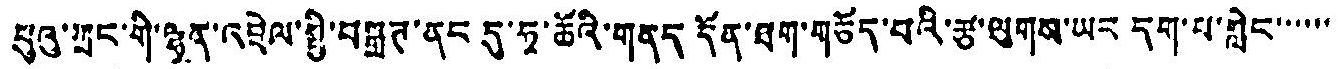པུའུ་ཀྲང་གི་ལྷན་འབྲེལ་སྤྱི་བསྒྲཊ་ནང དུ་ཧྭ་ཆོའི་གནད དོན་ཐག་གཅོད་པའི་རྩ་ལུགས་ཡང དག་པ་གླེང་་་་་་
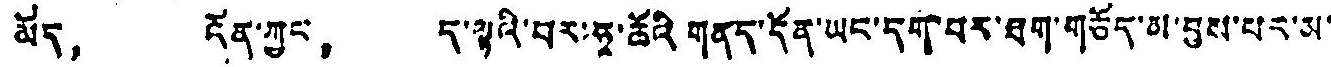མོད， འོན་ཀྱང。 ད་ལྟའི་བར་ཧྭ་ཆོའི གནད་དོན་ཡང་དག་པར་ཐག་གཅོད་མ་བྱས་པར་མ་
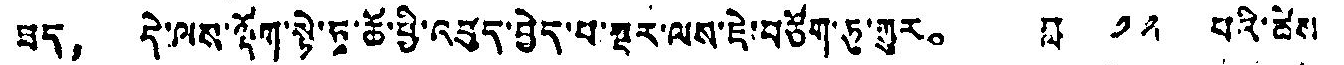ཟད， དེ་ལས་ལྡོག་སྟེ་ཧྭ་ཆོ་ཕྱི་འབུད་བྱེད་པ་སྔར་ལས་ཇེ་བཙོག་ཏུ་གྱུར。 ཟླ ༡༢ པའི་ཚེས
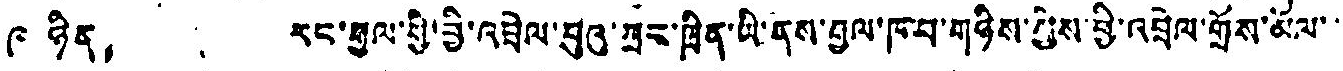༩ ཉིན， རང་རྒྱལ་གྱི་ཕྱི་འབྲེལ་པུའུ་ཀྲང་ཁྲིན་ཡི་ནས་བྱལ་ཁབ་གཉིས་ཀྱིས་ཕྱི་འབྲེལ་གྲོས་མོལ་་
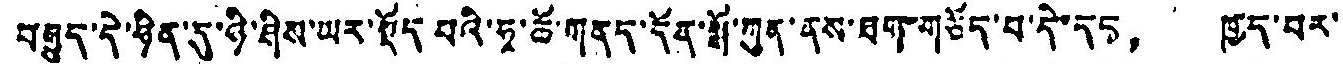བརྒྱུད་དེ་ཤིན་དུ་ཉི་ཤིས་ཡར་སྡོད པའི་ཧྭ་ཆོ་གནད་དོན་སྒོ་ཀུན་ནས་ཐག་གཅོད་པ་དེ་དང， ཁྱད་པར་
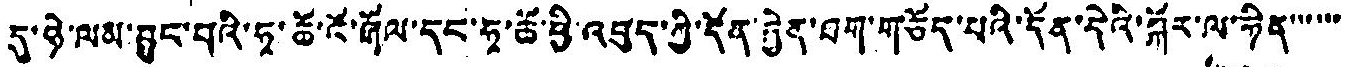དུ་ཉེ་ལམ་བྱུང་བའི་ཧྭ་ཆོ་ངོ་རྒོལ་དང་ཧྭ་ཆོ་ཕྱི་འབུད་ཀྱི་དོན་རྐྱེན་བག་གཅོད་པའི་དོན་དེའི་སྐོར་ལ་ཧིན་་་་་་་
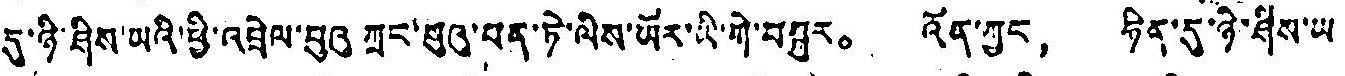དུ་ཉི་ཤིས་ཡའི་ཕྱི་འབྲེལ་པུའུ ཀྲང་སུའུ་པན་ཏེ་ལིས་ཡོར་ཡི་གེ་བསྐུར。 འོན་ཀྱང， ཧིན་དུ་ཉི་ཤིས་ཡ
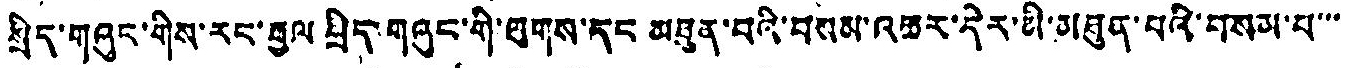སྲིད་གཞུང་གིས་རང་རྒྱལ སྲིད་གཞུང་གི་ལུགས་དང མཐུན་པའི་བསམ་འཆར་དེར་མ་མཐུན་པའི་བསམ་པ་་་
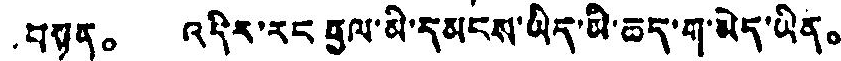བསྟན。 འདིར་རང རྒྱལ་མི་དམངས་ཡིད་མི་ཆད་ག་མེད་ཡིན。
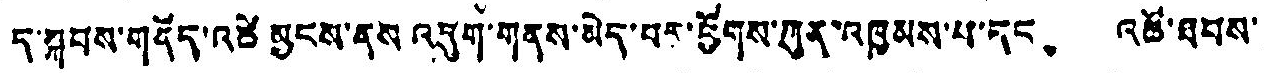ད་སྐབས་གདོད་འཚེ མྱངས་ནས འབུག་གནས་མེད་པར་ཕྱོགས་ཀུན་འཁྱམས་པ་དང、 འཚོ་ཐབས་
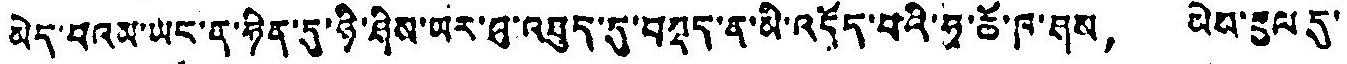མེད་པའམ་ཡང་ན་ཉིན་དུ་ཉི་ཤིས་ཡར་ཐུ་འཐུད་དུ་བསད་ན་མི་འདོད་པའི་ཧྭ་ཆོ་ཁ་ཤས， ཡེབ་རྡུལ དུ་
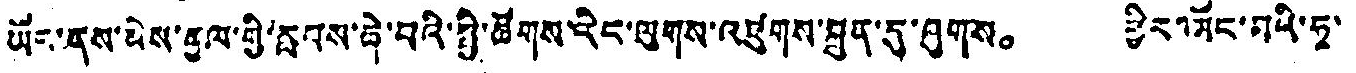ཡོང་ནས་མེས་རྒྱལ་གྱི་རླབས་ཇེ་བའི་སྤྱི་ཚོགས་རིང་ལུགས་འཛུགས་ཐུན་དུ་ཤུགས。 ཕྱིར་མོང་གའི་ཧྭ་
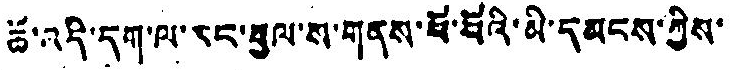ཆོ་འདི་དག་ལ་རང་རྒྱལ་ས་གནས་བོ་བོའི་མི་དམངས་ཀྱིས་
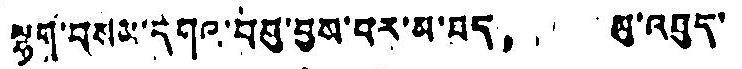ལྷག་བསམ་དགའ་བསུ་བྱས་པར་མ་བད， མུ་འབུད་
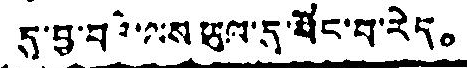དུ་བྱ་བའི་ལས ཡུལ་དུ་སོང་བ་རེད。
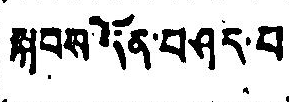སྐབས་དོན་བཤད་བ
